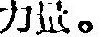力量。
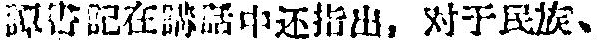譚書記在講話中还指出，对于民族、
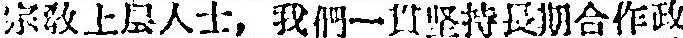宗敎上民人士，我們一貫坚持長期合作政
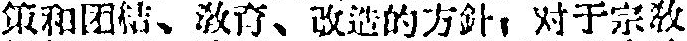策和团結、敎育、改造的方針；对于宗敎
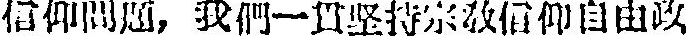信仰問題，我們一貫坚持宗敎信仰自由政
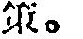策。
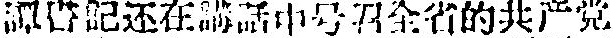譚書記还在講話中号召全省的共产党
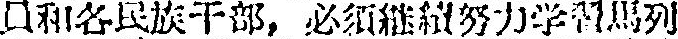員和各民族干部，必須継續努力学習馬列
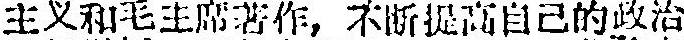主义和毛主席著作，不断提高自己的政治
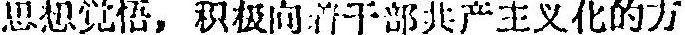思想覚悟，积极向着干部共产主义化的方
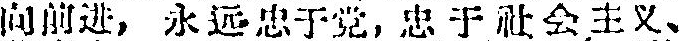向前进，永远忠于党，忠于社会主义、
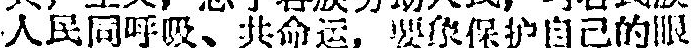人民同呼吸、共命运，要象保护自己的眼
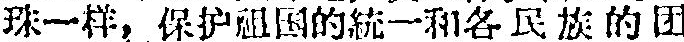珠一样，保护祖国的統一和各民族的团
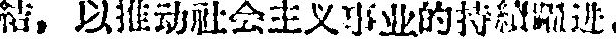結，以推动社会主义事並的持續躍进。
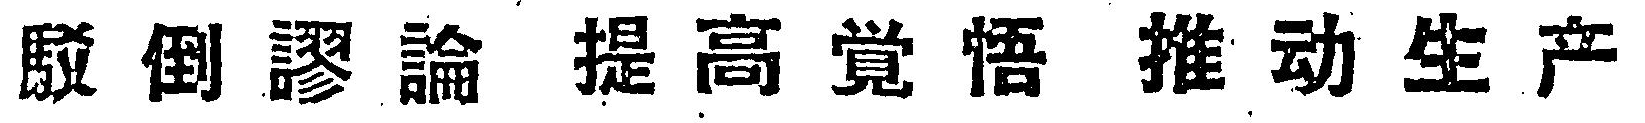駁 倒 謬 論 提 高 覚 悟 推 动 生 产
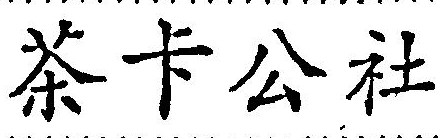茶卡公社
